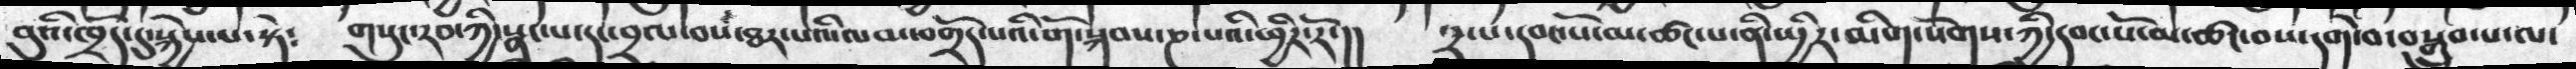བུའི་ཁྲོད་དུ་སྐྱེས་པ་སྟེ༴  གསུང་རབ་ཀྱི་སྣང་པ་དང་བྲལ་བས་ཐར་པའི་ལམ་བགྲོད་པའི་གོ་སྐབས་ཎ་པའི་ཕྱིར་རོ་།།  ༢་པ་དབང་པོ་མ་ཚང་པ་ནི་སྤྱིར་མིག་སོགས་ཀྱི་དབང་པོ་མ་ཚང་བས་དགེ་བ་སྒྲུབ་པ་ལ་
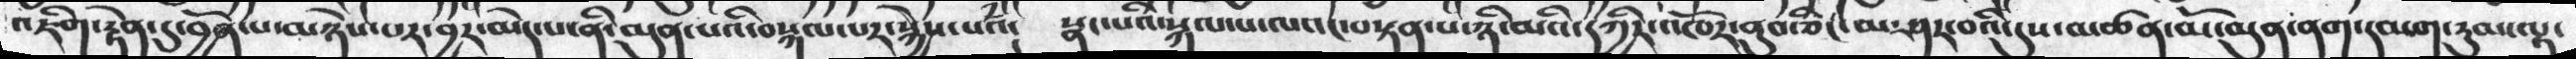འཇིག་རྟེན་དུ་བྱོན་པ་མཉེས་པར་བྱར་མེད་པ་ནི་མུན་པའི་བསྐལ་པར་སྐྱེས་པའཾ༴ སྣང་པའི་སྐལ་པ་ལའང་བསྟན་པ་ཉི་མའི་དཀྱིལ་འཁོར་ནུབ་ཅིང་མ་ཤར་བའི་དུས་མཚན་མོ་མུན་ནག་དམག་རུམ་ལྟ་
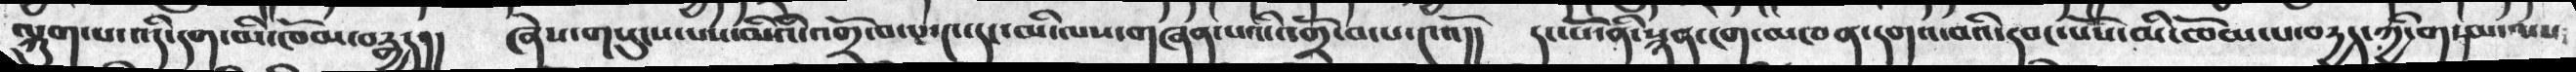ལྐུག་པ་འདི་དག་མི་ཁོམ་བརྒྱད།།  ཞེས་གསུངས་པས་མིའི་འགྲོ་བ་པ་༤་དང་མི་ལས་གཞན་པའི་འགྲོ་བ་པ་༤འོ།།  དང་པོ་ནི་སྙན་ངག་མཁན་དགའ་བའི་དབང་པོས་མི་ཁོམ་པ་བརྱད་ཀྱི་གཏམ་ལས
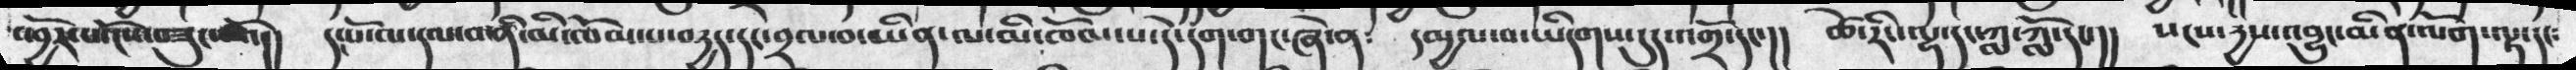འབྱོར་པ་ངོས་བཟུང་པའོ་།།   དང་པོ་ལ་དལ་བ་ནི་མི་ཁོམ་པ་བདྱད་དང་བྲལ་བ་ཡིན་ལ་མི་ཁོམ་པ་དེ་དག་གང་ཞེ་ན༴   དམྱལ་བ་ཡིདགས་དུད་འགྲོ་དང་།།   ཚེ་རིང་ལྷ་དང་ཀླ་ཀློ་དང་།།   སངས་དྱས་འབྱུང་མིན་ལོག་ལྟ་དང༴
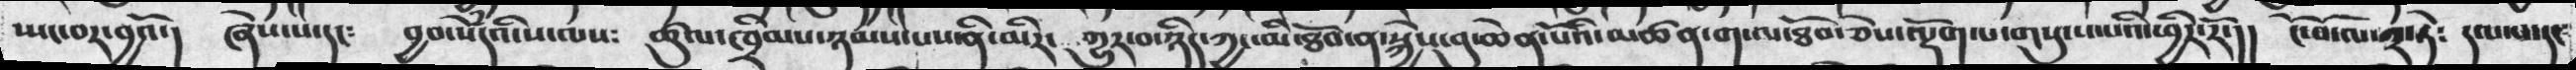སྤང་བར་བྱའོ་།  ཞེས་པ་དང༴  བྱབ་སེཾདཔའི་ས་ལས༴  ཚུལ་ཁྲིམས་ཉམས་པས་ནི་མིར་ གྱུར་བ་ཉིད་ཀྱང་མི་ཐོབ་ན་སྐྱེས་བུ་ཆེན་པོའི་མཚན་ག་ལ་ཐོབ་ཅེས་ལྡོག་པ་གསུངས་པའི་ཕྱིར་རོ་།། ངོ་བོ་ལ་༢་ཏེ༴ དལ་པ་དང
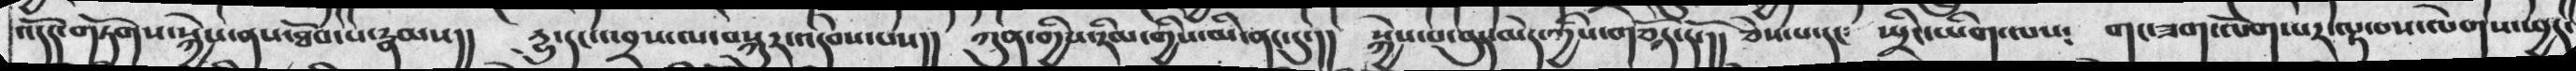འདོད་གཏོགས་སྐྱེས་ནས་ཐོབ་པ་རྣམས།། རྱུ་དང་འབྲས་ལ་བསྐུར་འདེབས་པས།། ཀུན་གྱིས་རིམ་གྱིས་མི་ནང་དུ་།། སྐྱེས་པ་བུད་མེད་ཀྱིས་གཅོད་དོ་།། ཅེས་པ་དང༴ སྤྲིང་ཡིག་ལས༴ གང་ཟག་ལོག་པར་ལྟ་བས་ལེགས་ཕྱད་
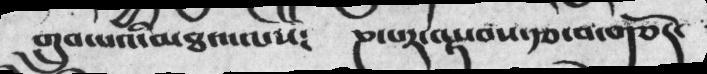གྲུབ་པའི་མཐའ་ལས༴ ཎ་པར་ལྟ་བས་རྩ་བ་གཅོད་
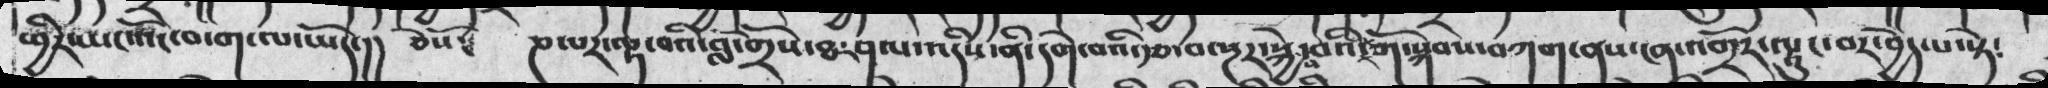ཕྱིར་ཡང་འོང་བ་ག་ལ་ཡོད་།།  ཅེསོ༴    ཎ་པར་ལྟ་བའི་བློ་གྲོས་ཐ་ཤལ་འདིས་ནི་དགེ་བའི་རྩ་བ་སྔར་སྐྱེས་བའི་གོ་སྐབས་བཀག་ནས་ངན་འགྲོར་ལྟུང་བར་བྱེད་པ་སྟེ༴
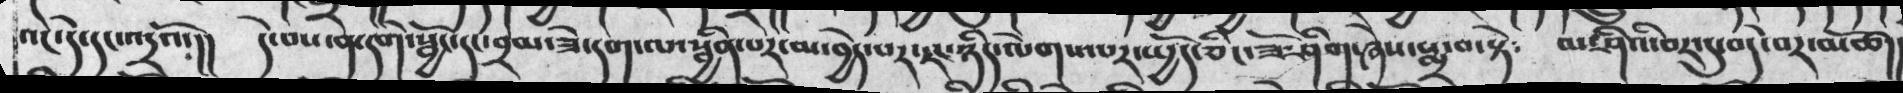འང་དེ་དང་འདྲའོ་།། དེ་བས་ན་དགེ་སྦྱོང་དང་བྲམ་ཟེ་དག་ལ་སྦྱིན་པར་མ་བྱེད་པར་རང་ཉིད་ལེགས་པར་སྤྱོད་ཅིང་ཟོ་ཤིག་ཞེས་སྨྲ་བ་སྟེ༴ མ་ཤིའི་བར་དུ་བདེ་བར་མཆོད།
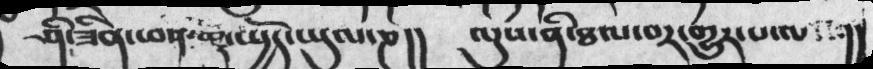ཤི་ཟིན་ཕན་ཆད་སྤྱོད་ཡུལ་ཎ།།  ལུས་ནི་ཐལ་བར་གྱུར་པ་ལ་ །།
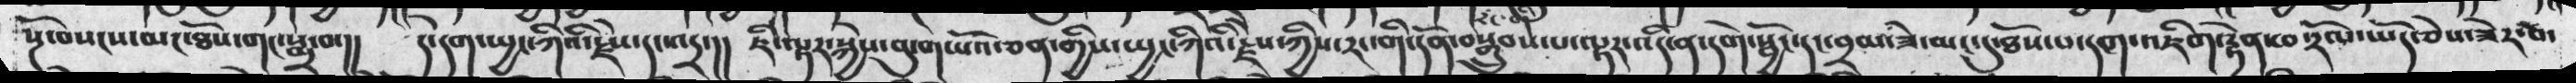སྔོ་བསངས་མང་ཐོས་གང་སྨྲ་བ་།།   དེ་དག་སྤྱང་ཀིའི་རྗེས་དང་འདྲ་།།   ཇི་ལྟར་སྐྱེས་བུ་གཡོའ་ཅན་གྱིས་སྤྱང་ཀིའི་རྗེས་ཀྱིས་རང་གི་དོན་བསྒྲུབས་པ་ལྟར་འདི་ན་དགེ་སྦྱོང་དང་བྲམ་ཟེ་མང་དུ་ཐོས་པ་དག་འཇིག་རྟེན་ཕ་རོལ་ཡོད་ཅེས་ཟེར་བ་
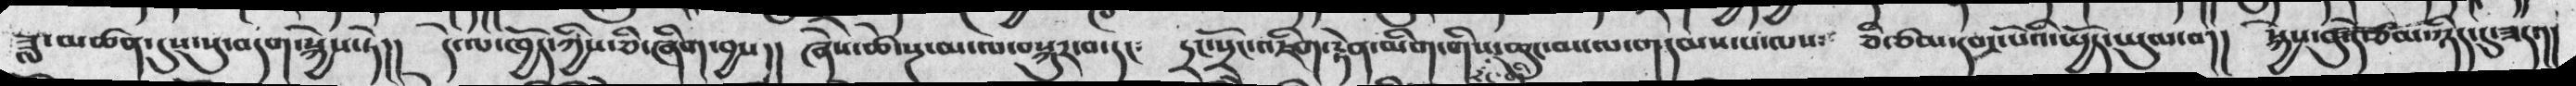ཟླ་མཚན་དུས་སུ་བདག་སྐྱེས་ཏེ།།   དེ་ལ་ཁྱོད་ཀྱིས་ཅི་ཞིག་བྱས།།   ཞེས་ཚེ་སྔ་མ་ལ་བསྐུར་དང༴   དྲང་སྲོང་འཇིག་རྟེན་མིག་གིས་རང་གི་ཆུང་མ་ལ་གདམས་པ་ལས༴  ཅི་ཙམ་དབང་པོའི་སྤྱོད་ཡུལ་བ།།  སྐྱེས་བུ་དེ་ཙམ་ཉིད་དུ་ཟད་།།
